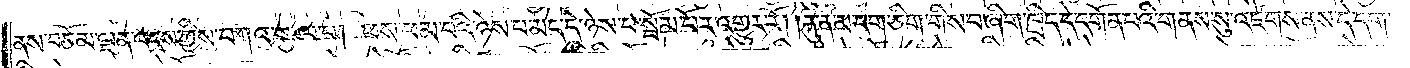ནས་བཅོམ་ལྡན་འདས་ཀྱིས་བཀའ་སྩལ་པ། ཕས་ཕམ་པའི་ཉེས་པ་མེད་དེ་ཉེས་པ་སྦོམ་པོར་འགྱུར་རོ། །རྐུན་མ་དག་ཅིག་གིས་བ་ཞིག་ཁྲིད་དེ་དགོན་པའི་གནས་སུ་འཛེགས་ནས་དེ་དག་
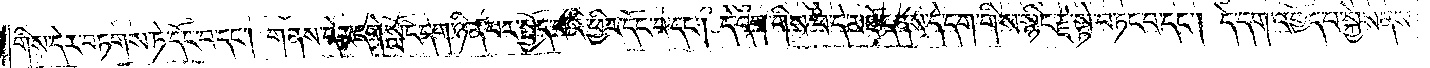གིས་དེར་བཏགས་ཏེ་དོང་བ་དང༌། གནས་དེར་དགེ་སློང་དག་ཉིན་པར་སྤྱོད་པའི་ཕྱིར་དོང་བ་དང༌། དེ་དག་གིས་བ་དེ་མཐོང་ནས་དེ་དག་གིས་སྙིང་རྗེ་སྟེ་བཏང་བ་དང༌། དེ་དག་འགྱོད་པ་སྐྱེས་ནས་
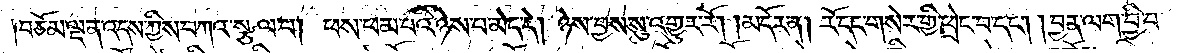བཅོམ་ལྡན་འདས་ཀྱིས་བཀའ་སྩལ་པ། ཕས་ཕམ་པའི་ཉེས་པ་མེད་དེ། ཉེས་བྱས་སུ་འགྱུར་རོ། །མདོར་ན། རོ་དང་གསེར་གྱི་ཕྲེང་བ་དང༌། །བྱན་ལག་བྱི་བ་
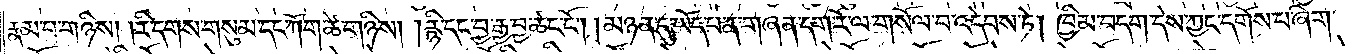རྣམ་པ་གཉིས། །རི་དགས་གསུམ་དང་ཀོག་ཚེ་གཉིས། །རྙི་དང་བྱ་རྒྱ་བྱ་ཚང་ངོ༌། །མཉན་དུ་ཡོད་པ་ན་གཞན་དག་རོ་ལ་གསོལ་བ་འདེབས་ཏེ། ཁྱིམ་བདག་དེས་ཀྱང་དགོས་པ་ཞིག་
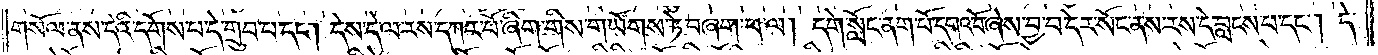གསོལ་ནས་དེའི་དགོས་པ་དེ་གྲུབ་པ་དང༌། དེས་དེ་ལ་རས་དཀར་པོ་ཞིག་གིས་གཡོགས་ཏེ་བཞག་པ་ལ། དགེ་སློང་ནག་པོ་དགའ་བོ་ཞེས་བྱ་བ་དེར་སོང་ནས་རས་དེ་བླངས་པ་དང༌། དེ་
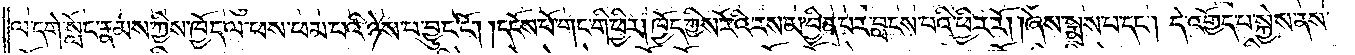ལ་དགེ་སློང་རྣམས་ཀྱིས་ཁྱོད་ལ་ཕས་ཕམ་པའི་ཉེས་པ་བྱུང་ངོ༌། །དངོས་པོ་གང་གི་ཕྱིར། ཁྱོད་ཀྱིས་རོའི་རས་མ་བྱིན་པར་བླངས་པའི་ཕྱིར་རོ། །ཞེས་སྨྲས་པ་དང༌། དེ་འགྱོད་པ་སྐྱེས་ནས་
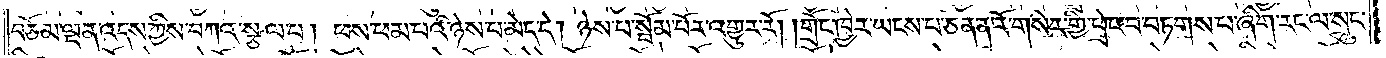བཅོམ་ལྡན་འདས་ཀྱིས་བཀའ་སྩལ་པ། ཕས་ཕམ་པའི་ཉེས་པ་མེད་དེ། ཉེས་པ་སྦོམ་པོར་འགྱུར་རོ། །གྲོང་ཁྱེར་ཡངས་པ་ཅན་ན་རོ་གསེར་གྱི་ཕྲེང་བ་བཏགས་པ་ཞིག་རང་ལ་སྲུང་
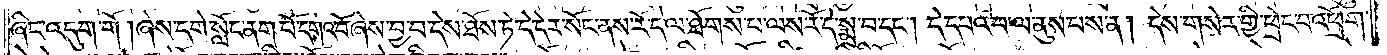ཞིང་འདུག་གོ། ཞེས་དགེ་སློང་ནག་པོ་དགའ་བོ་ཞེས་བྱ་བ་དེས་ཐོས་ཏེ་དེ་དེར་སོང་ནས་རོ་དེ་ལ་ཐོགས་པ་ལས་རོ་དེ་སྨྲ་བ་དང༌། དེ་དཔའ་བ་ལ་ནུས་པས་ན། དེས་གསེར་གྱི་ཕྲེང་བ་འཕྲོག་
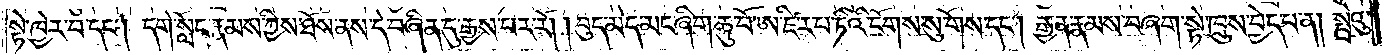སྟེ་ཁྱེར་བ་དང༌། དགེ་སློང་རྣམས་ཀྱིས་ཐོས་ནས་དེ་བཞིན་དུ་རྒྱས་པར་རོ། །བུད་མེད་མང་ཞིག་ཆུ་བོ་ཨ་ཛི་ར་པ་ཏིའི་ངོགས་སུ་གོས་དང༌། རྒྱན་རྣམས་བཞག་སྟེ་ཁྲུས་བྱེད་པ་ན། སྤྲེའུ་
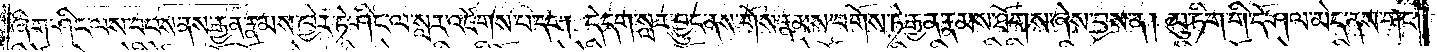ཞིག་ཤིང་ལས་བབས་ནས་རྒྱན་རྣམས་ཁྱེར་ཏེ་ཤིང་ལ་སླར་འཛེགས་པ་དང༌། དེ་དག་སླར་བྱུང་ནས་གོས་རྣམས་བགོས་ཏེ་རྒྱན་རྣམས་ཐོགས་ཞེས་བྱས་ན། མུ་ཏིག་གི་དོ་ཤལ་མེད་ནས་གང་
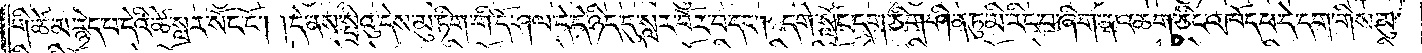གི་ཚེ་མ་རྙེད་པ་དེའི་ཚེ་སླར་སོང་ངོ༌། །དེ་ནས་སྤྲེའུ་དེས་མུ་ཏིག་གི་དོ་ཤལ་དེ་དེ་ཉིད་དུ་སླར་བོར་བ་དང༌། དགེ་སློང་དག་ཅིག་ཤིན་ཏུ་མི་རིང་བ་ཞིག་ན་འཆག་ཅིང་འཁོད་པ་དེ་དག་གིས་མུ་
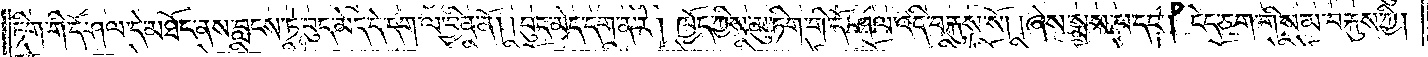ཏིག་གི་དོ་ཤལ་དེ་མཐོང་ནས་བླངས་ཏེ་བུད་མེད་དེ་དག་ལ་བྱིན་ནོ། །བུད་མེད་དག་ན་རེ། ཁྱོད་ཀྱིས་མུ་ཏིག་གི་དོ་ཤལ་འདི་བརྐུས་སོ། །ཞེས་སྨྲས་པ་དང༌། ངེད་ཅག་གིས་མ་བརྐུས་ཀྱི།
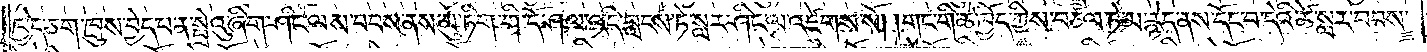ཁྱེད་ཅག་ཁྲུས་བྱེད་པ་ན་སྤྲེའུ་ཞིག་ཤིང་ལས་བབས་ནས་མུ་ཏིག་གི་དོ་ཤལ་འདི་བླངས་ཏེ་སླར་ཤིང་ལ་འཛེགས་སོ། །གང་གི་ཚེ་ཁྱོད་ཀྱིས་བཙལ་ཏེ་མ་རྙེད་ནས་དོང་བ་དེའི་ཚེ་སླར་བབས་
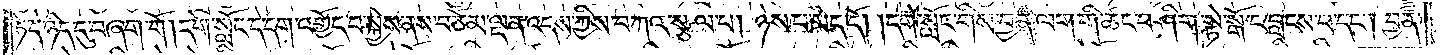ཏེ་དེ་ཉིད་དུ་བཞག་གོ །དགེ་སློང་དེ་དག་འགྱོད་བ་སྐྱེས་ནས་བཅོམ་ལྡན་འདས་ཀྱིས་བཀའ་སྩལ་པ། ཉེས་པ་མེད་དོ། །དགེ་སློང་གིས་བྱན་ལག་གི་ཚང་བཤིག་སྟེ་སྒོ་ང་བླངས་པ་དང༌། བྱན་
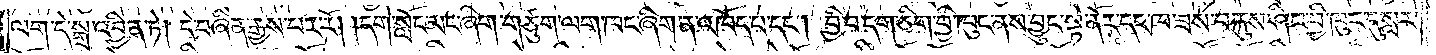ལག་དེ་སྒྲ་འབྱིན་ཏེ། དེ་བཞིན་རྒྱས་པར་རོ། །དགེ་སློང་མང་ཞིག་གཙུག་ལག་ཁང་ཞིག་ན་འཁོད་པ་དང༌། བྱི་བ་དག་ཅིག་བྱི་ཁུང་ནས་བྱུང་སྟེ་ནོར་དང་ཁ་ཟས་བརྐུས་ཤིང་བྱི་ཁུང་དུ་སླར་
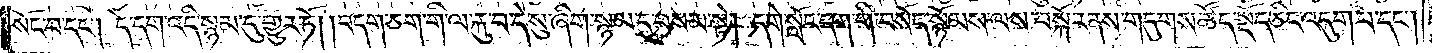སོང་བ་དང༌། དེ་དག་འདི་སྙམ་དུ་གྱུར་ཏོ། །བདག་ཅག་གི་ལ་རྐུ་བ་དེ་སུ་ཞིག་སྙམ་དུ་བསམ་སྟེ། དགེ་སློང་དག་གི་བསོད་སྙོམས་ལས་བསྐོར་ནས་གདུགས་ཚོད་སྡོད་ཅིང་འདུག་པ་དང༌།
